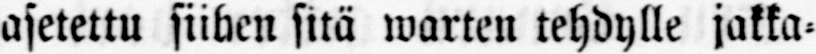asetettu siihen sitä warten tehdylle jakka-
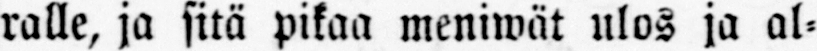ralle, ja sitä pikaa meniwät ulos ja al-
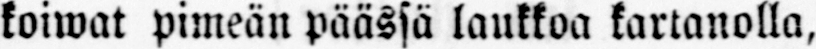koiwat pimeän päässä laukkoa kartanolla,
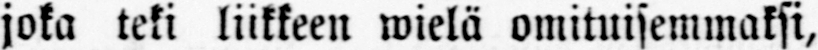joka teki liikkeen wielä omituisemmaksi,
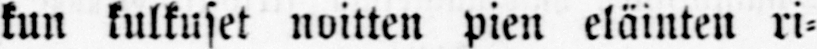kun kulkuset noitten pien eläinten ri-
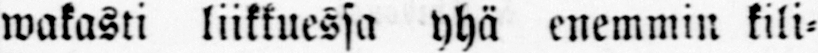wakasti liikkuessa yhä enemmin kili-
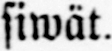siwät.
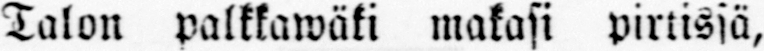Talon palkkawäki makasi pirtissä,
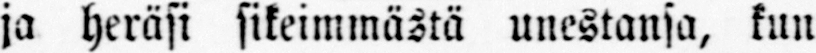ja heräsi sikeimmästä unestansa, kun
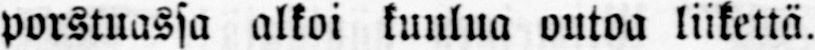porstuassa alkoi kuulua outoa liikettä.
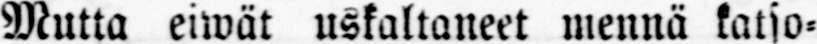Mutta eiwät uskaltaneet mennä katso-
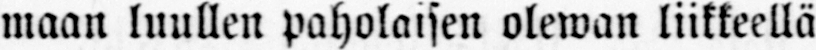maan luullen paholaisen olewan liikkeellä
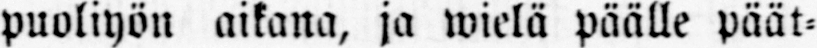puoliyön aikana, ja wielä päälle päät-
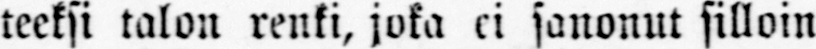teeksi talon renki, joka ei sanonut silloin
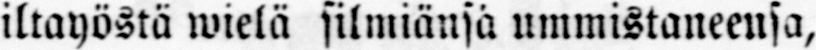iltayöstä wielä silmiänsä ummistaneensa,
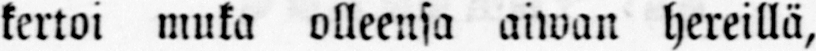kertoi muka olleensa aiwan hereillä,
